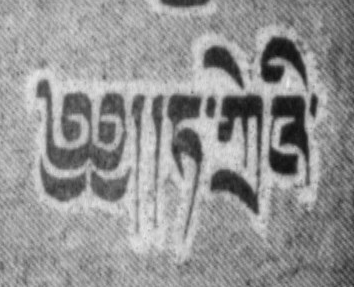༄༅།།ཏ་ཀྲེའི་
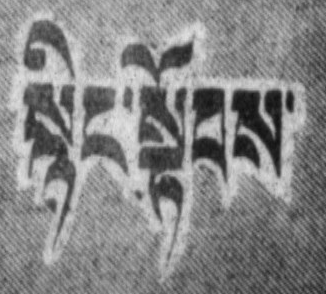སྙིང་སྟོབས་
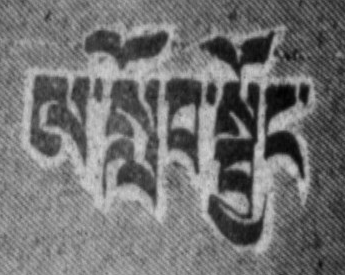ལ་སློབ་སྦྱོང་
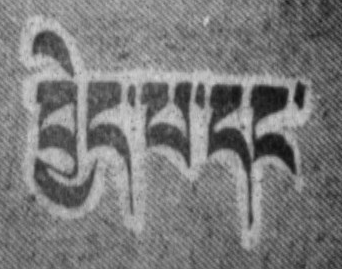བྱེད་པ་དང་
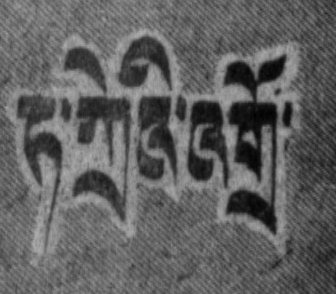ཏ་ཀྲེའི་འགྲོ་
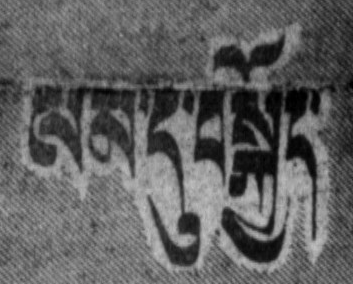ལམ་དུ་བསྐྱོད་
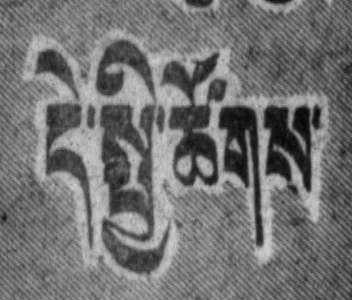དེ་སྤྱི་ཚོགས་
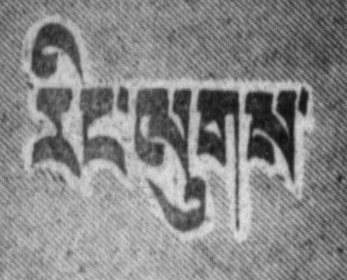རིང་ལུགས་
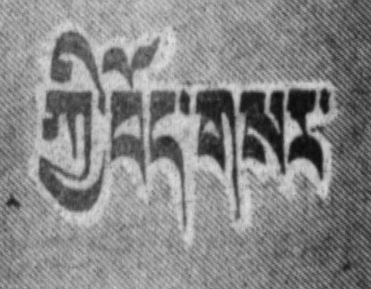ཀྱི་བོད་གསར་
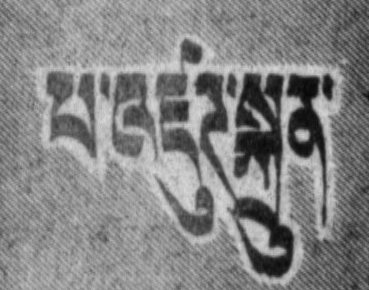པ་འཛུཊ་སྐྲུན་
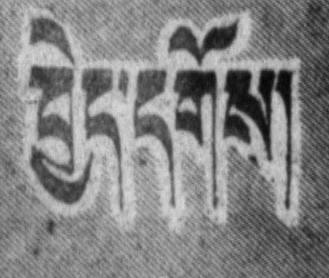བྱེད་དགོས།
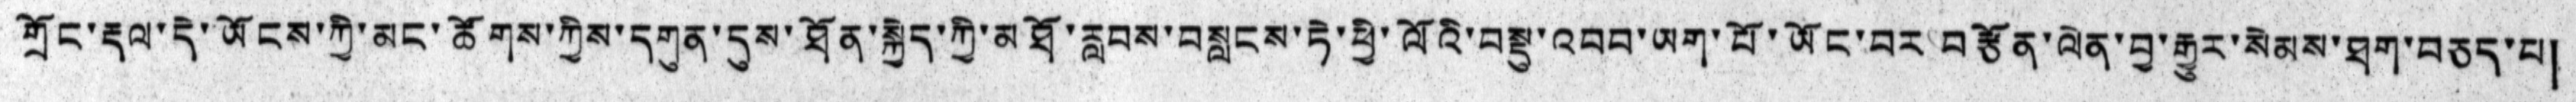གྲོང་རྡལ་དེ་ཡོངས་ཀྱི་མང་ཚོགས་ཀྱིས་དགུན་དུས་ཐོན་སྐྱེད་ཀྱི་མཐོ་རླབས་བསླངས་ཏེ་ཕྱི་ལོའི་བསྡུ་འབབ་ཡག་པོ་ཡོང་བར་བརྩོན་ལེན་བྱ་རྒྱུར་སེམས་ཐག་བཅད་པ།
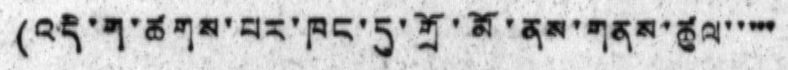(འདི་ག་ཚགས་པར་ཁང་དུ་གྲོ་མོ་ནས་གནས་ཚུལ་་་་་
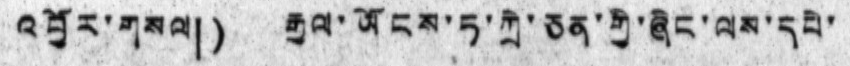འབྱོར་གསལ།) རྒྱལ་ཡོངས་ཏ་ཀྲེ་ཅན་གྱི་ཞིང་ལས་དཔེ་
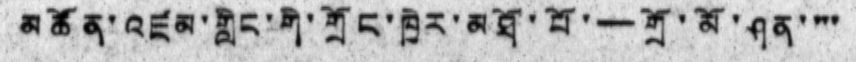མཚོན་འཛམ་གླིང་གི་གྲོང་ཁྱེར་མཐོ་པོ་ — གྲོ་མོ་ཤན་་་་
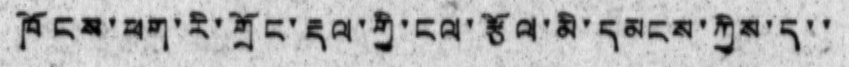ཁོངས་ཕག་རི་གྲོང་རྡལ་གྱི་ངལ་རྩོལ་མི་དམངས་ཀྱིས་ད་་
